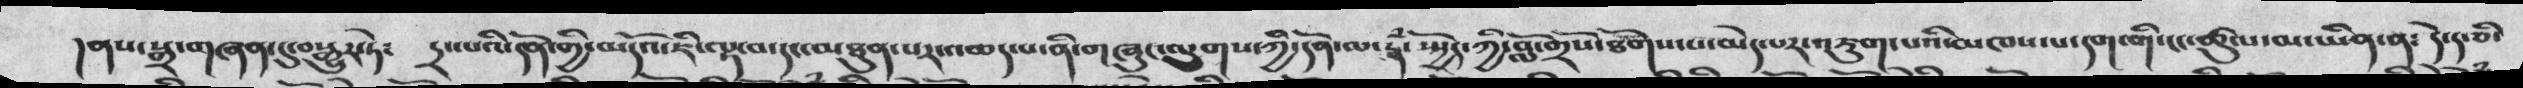།ནས་སྒྲ་གཞན་དུ་བསྒྱུར་ཏེ༴ དྲང་པའི་དོན་གྱི་མདོའ་ཇི་ལྟ་བ་དང་མཐུན་པར་འཆད་པ་ནི་གཞུང་ལུགས་ཀྱི་དོན་ལ་རྣཾ་སྤྱོད་ཀྱི་བློ་གྲོས་ཐོགས་པ་མེད་པར་འཇུག་པའི་མཁས་པ་དག་གི་ངང་ཚུལ་མ་ཡིན་ན༴ དེ་ད་ཅི་
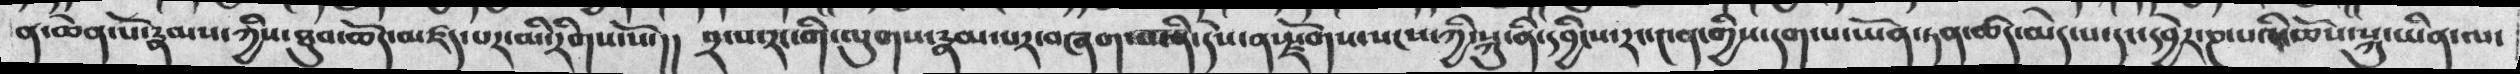ན་ཆེན་པོ་རྣམས་ཀྱིས་ཐུབ་ཚོད་མཛད་པར་མི་རིགས་སོ་།། ༢་པ་རང་གི་ལུགས་རྣམ་པར་བཞག་པ་ནི་དེས་ན་སྫོགས་སངས་ཀྱི་སྐུ་ནི་དབྱིངས་རང་༤ན་གྱིས་དག་པ་ཡོན་ཏན་ཚད་མེད་པ་དང་དབྱེར་ཎ་པའི་ཆོས་སྐུ་ཡིན་ལ་
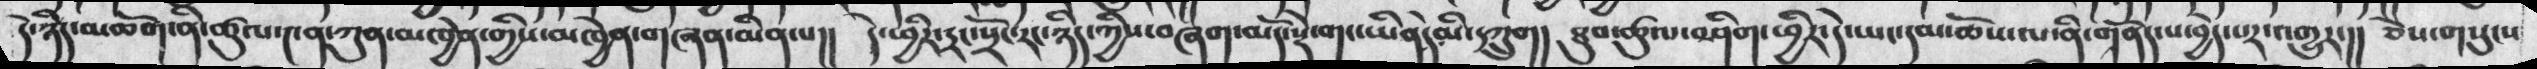དེ་ཉིད་མཆོག་ནི་ཚུལ་༤ན་ཀུན་མཁྱེན་གྱིས་མཁྱེན་གཞན་མིན་པ།།  དེ་ཕྱིར་དྲང་སྲོང་རང་ཉིད་ཀྱིས་བཞག་མདོ་སྡེ་གང་ཡིནདེ་མི་དཀྲུག། ཐུབ་ཚུལ་བཤིག་ཕྱིར་དེ་ཡང་དམ་ཆོས་ལ་ནི་གནོད་པ་བྱེད་པར་འགྱུར་།། ཅེས་གསུངས
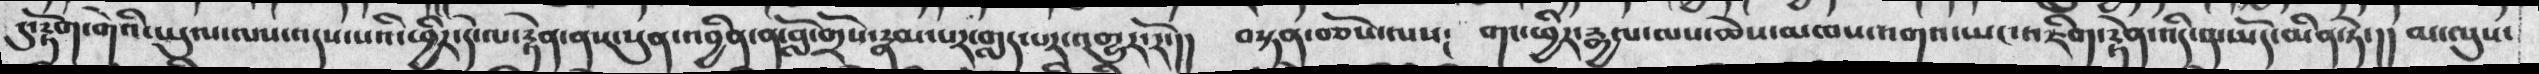དུ་རྟོག་གེའི་ཡུལ་ལས་འདས་པའི་ཕྱིར་དེ་ལ་རྟེན་ནས་སུན་བྱིན་ན་བློ་གྲོས་རྣམ་པར་གླད་པར་འགྱུར་རོ་།།  བསྟན་བཅོས་ལས༴  གང་ཕྱིར་རྒྱལ་ལས་ཆེས་མཁས་འགའ་ཡང་འཇིག་རྟེན་འདི་ན་ཡོད་མིན་ཏེ་།། མ་ལུས་
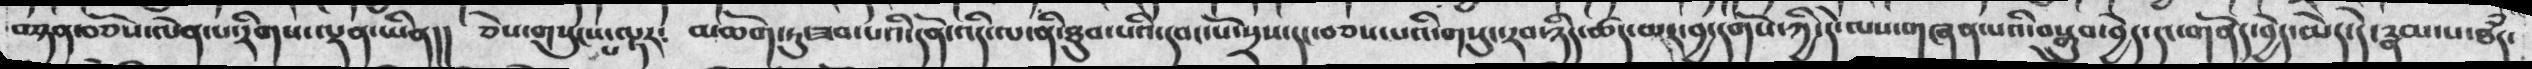བསྟན་བཅོས་ལེན་པ་རིགས་ལྡན་ཡིན།། ཅེས་གསུངས་པ་ལྟར༴   མཆོག་ཏུ་ཟབ་པའི་དོན་འདི་ལ་ནི་ཐུབ་པའི་དབང་པོ་སྲས་དང་་བཅས་པའི་གསུང་རབ་ཉིད་ཚད་མར་བྱ་དགོས་ཀྱི་དེ་ལས་གཞན་པའི་བསྒྲུབ་བྱེད་དང་གནོད་བྱེད་མེད་དེ་རྣམ་པ་ཐཾད་
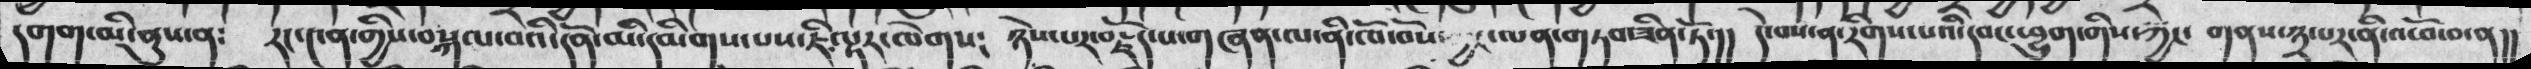དགག་མི་ནུས་ན༴  རང་༤ན་གྱིས་བསྐལ་བའི་དོན་མི་དམིགས་པས་ཇི་ལྟར་ལེགས༴  ཉེས་པར་བརྗོད་པ་གཞན་ལ་ནི་ཁོ་བོས་ཀྱང་ལན་གཏབ་ཟིན་ཏོ་།། དེ་བས་ན་རིགས་པའི་དབང་ཕྱུག་གིས་ཀྱང་ གནས་༣་པར་ནི་འཕོ་བ་ན།།
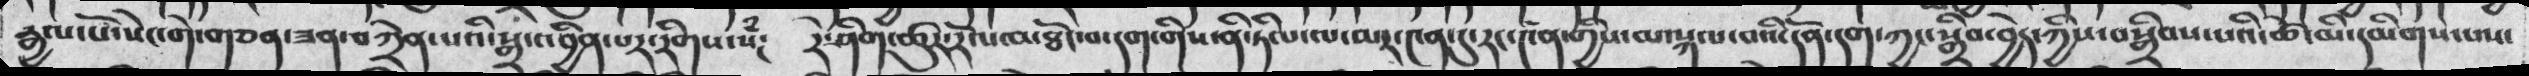རྒྱལ་པོ་སེང་གེ་གཅན་ཟན་བཀྲེན་པའི་སྒྲ་འབྱིན་པར་རིགས་སཾ༴  རེ་ཤིག་ཚུར་རོལ་མཐོང་བ་དག་གིས་ནི་ཏིལ་ལ་མར་༤ན་དུ་རང་༤ན་གྱིས་མ་སྐལ་བའི་དོན་དག་ཀྱང་སྒྲིབ་བྱེད་ཀྱིས་བསྒྲིབས་པའི་ཚེ་མི་དམིགས་ཨ་
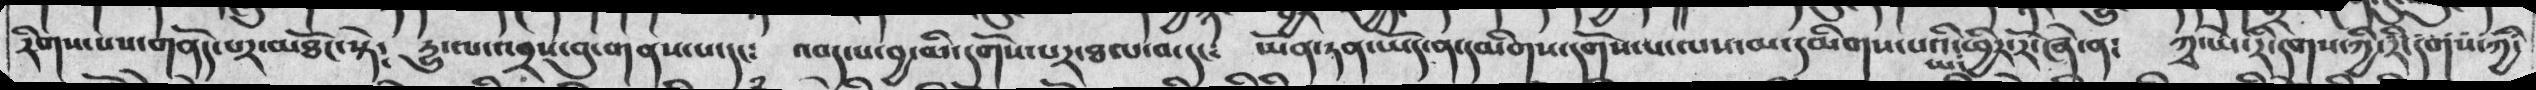རིགས་པས་གནོད་པར་མཐོང་སྟ༴  དྱུ་ལ་འབྲས་བུ་གནས་པ་དང༴  འབད་པ་བྱ་མི་དགོས་པར་ཐལ་བ་དང༴  ཡོན་ཏན་ཡོད་ན་དམིགས་དགོས་པ་ལས་མ་དམིགས་པའི་ཕྱིར་རོ་ཞེ་ན༴  ཀྭ་ཡེ་རི་དགས་ཀྱི་རི་དགས་ཀྱི་
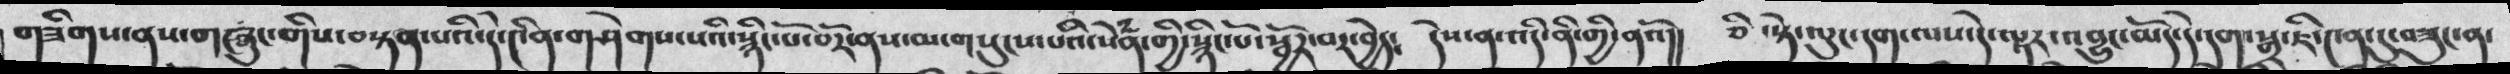གཟིགས་ནས་གཞུང་གིས་བསྟན་པའི་དེ་༤ིན་གཤེགས་པའི་སྙིང་པོ་བོར་ནས་མ་གསུངས་པའི་སེཾན་གྱི་སྙིང་པོ་སྦྱོར་བར་བྱེད༴  དེས་ན་འདི་ནི་གྱི་ནའོ།།  ཅི་སྟེ་ལུང་དག་ལས་དེ་ལྟར་འབྱུང་མོད་དེ་དག་སྒྲ་ཇི་༤ན་དུ་བཟུང་ན་
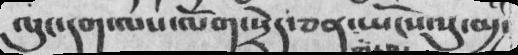ལུང་དག་ལས་ལོག་སྲེད་ཅན་ཡཔངས་སུ་མྱ་
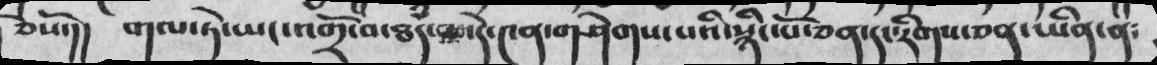ཅེས་སོ་།།  གལ་ཏེ་ཡང་འགྲོ་བ་ཐཾད་དེ་༤ན་གཤེགས་པའི་སྙིང་པོ་ཅན་དང་རིགས་ཅན་ཡིན་ན༴
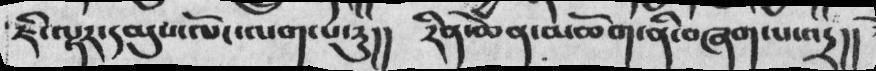ཇི་ལྟར་དམུས་ལོང་ལག་པ་རུ།།  རིན་ཆེན་མཆོག་ནི་བཞག་པ་འདྲ།།
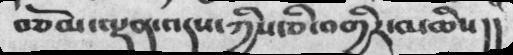བཅོམ་ལྡན་འདས་ཀྱིས་ཅི་བགྱིར་མཆིས།།
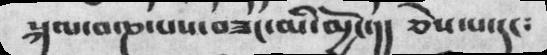སྐལ་བ་ཎ་པས་བཟང་མི་མྱོང་།། ཅེས་པ་དང༴
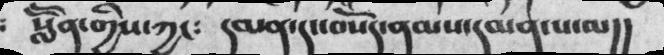སླཽན་གྱིས་ཀྱང༴ དམན་དང་བསོད་ནམས་དམན་པ་ལ།།
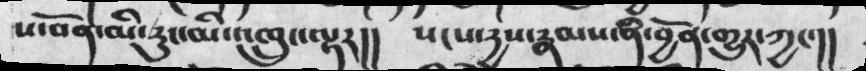ས་བོན་མི་རུང་མི་འཁྲུང་ལྟར།།  སངས་དྱས་རྣམས་ནི་བྱོན་གྱུར་ཀྱང་།།
